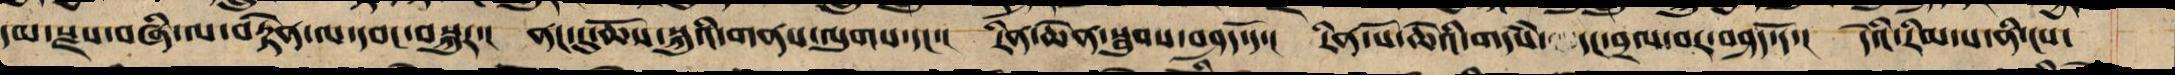དབང་སྫས་བཞི་ལ་བརྟེན་ལ་དབང་བསྐུར་། ནང་དུ་ཆོས་སྐུའི་གནས་ལུགས་དང་། རིན་པོ་ཆེའི་སྦུབས་བཤད་དོ་། རིན་པོ་ཆེའི་གདཾས་ངག་དང་འབྲེལ་བར་བཤད་དོ་། དེའི་རིམ་པ་ནི་ངས་
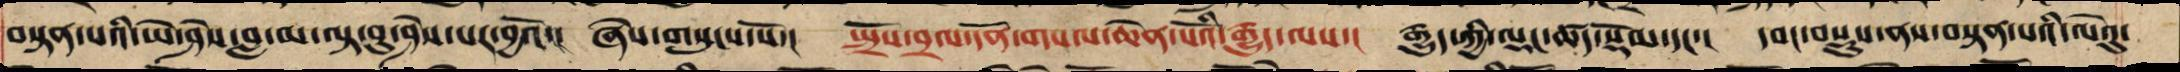བསྟན་པའི་ཡེ་ཤེས་བླ་མ་ལྟ་བུ་་ཤེས་པར་བྱའོ་། ཞེས་གསུངས་སོ་། སྤྲོས་བྲལ་དོན་གསལ་ཆེན་པོའི་རྒྱུད་ལས་། རྒྱུད་ཀྱི་ལྡང་ཚད་སྡོམ་དང་། དབང་བསྡུས་ནས་བསྟན་པའི་ལེའུ་
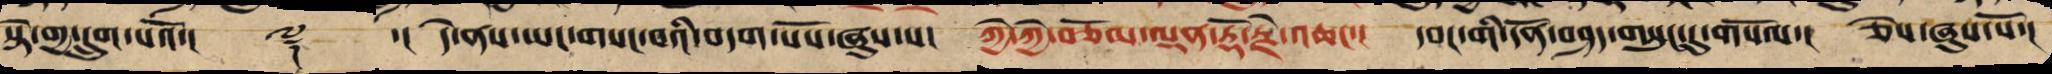སྟེ་གྱ་དྲུག་པའོ་།། ༈ ་།། དེ་ནས་ཡང་གསང་བའི་བདག་པོས་ཞུས་པ་། ཀྱེ་ཀྱེ་བཅོམ་ལྡན་རྡོ་རྗེ་འཆང་། དབང་གི་དོན་བཤད་གསུང་དུ་གསོལ་། ཅེས་ཞུས་སོ་།
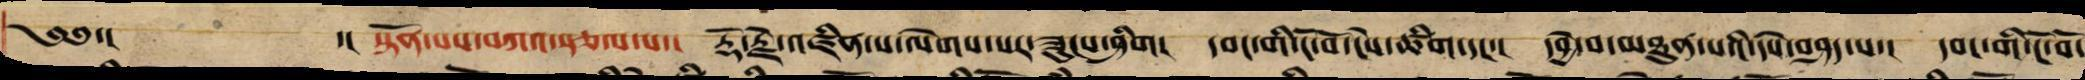༄༅་།  ་། སྟོན་པས་བཀའ་སྩལ་པ་། རྡོ་རྗེ་འཛིན་པ་ལེགས་པར་ཟུངས་ཤིག། དབང་གི་ངོ་བོ་ངེས་ཚིག་དང་། དབྱེ་བ་མཐུན་པའི་དཔེ་བཤད་པ་། དབང་གི་ངོ་བོ་
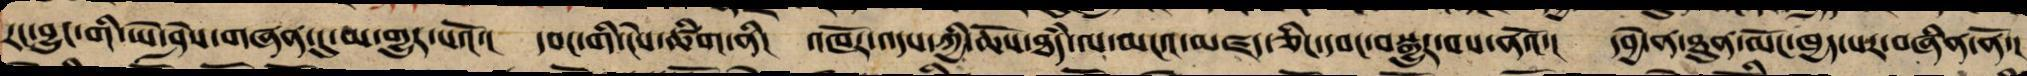རང་བྱུང་གི་ཡེ་ཤེས་གཞན་དུ་མ་གྱུར་པའོ་། དབང་གི་ངེས་ཚིག་ནི། འཁོར་འདས་ཀྱི་ཆོས་ཐཾད་ལ་མངའ་མཛད་ཅིང་དབང་བསྒྱུར་བས་ནའོ་། དབྱེ་ན་ཐུན་མོང་དང་ཁྱད་པར་གོང་བཞིན་ནོ་།
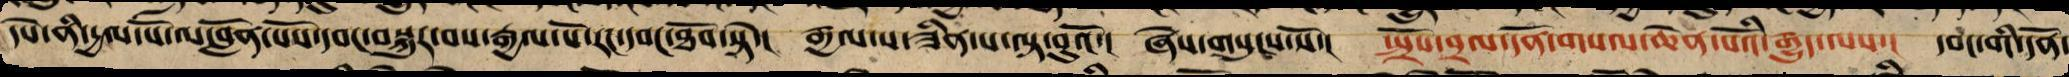དཔེ་ནི་རྒྱལ་པོ་ལ་བློན་པོས་དབང་བསྐུར་བས་རྒྱལ་པོར་རང་དབང་ཐོབ་སྟེ་། རྒྱལ་ས་ཟིན་པ་ལྟ་བུའོ་། ཞེས་གསུངས་སོ་། སྤྲོས་བྲལ་དོན་གསལ་ཆེན་པོའི་རྒྱུད་ལས་། དབང་གི་དོན་
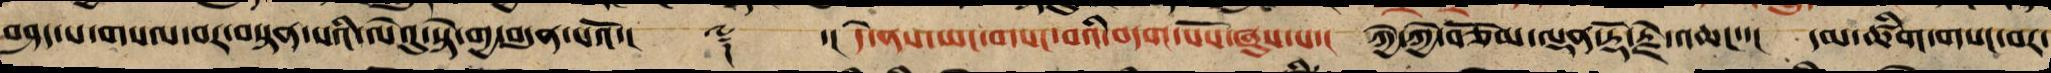བཤད་པ་གསལ་བར་བསྟན་པའི་ལེའུ་སྟེ་གྱ་བདུན་པའོ་།། ༈ ་།། དེ་ནས་ཡང་གསང་བའི་བདག་པོས་ཞུས་པ་། ཀྱེ་ཀྱེ་བཅོམ་ལྡན་རྡོ་རྗེ་འཆང་་། དམ་ཚིག་གསང་བར་
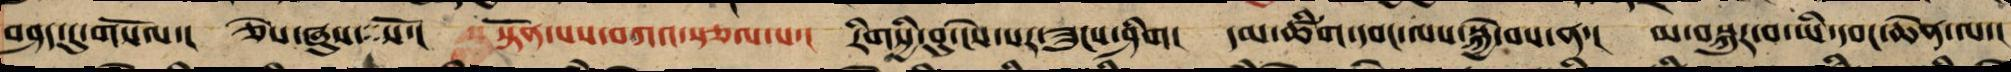བཤད་དུ་གསོལ་། ཅེས་ཞུས་སོ་། སྟོན་པས་བཀའ་སྩལ་པ་། རིགསྱི་བུ་ངེས་པར་ཟུང་ཤིག། དམ་ཚིག་དབང་ལས་སྐྱེ་བས་ན་། མ་བསྐུར་བ་ཡི་དབང་ཆེན་ལ་།
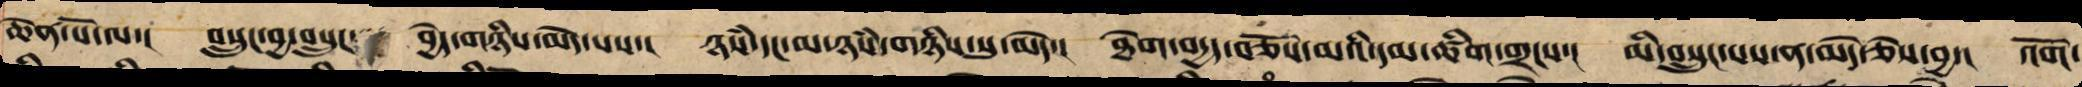ཆེན་པོ་ལ་། བསྲུང་བྱ་སྲུང་  བྱེད་གཉིས་མེད་པས་། ཉཾས་དང་མ་ཉཾས་གཉིས་སུ་མེད་། ཐེག་བདྱད་བཅོས་པའི་དམ་ཚིག་གྲངས་། མི་བསྲུང་པས་ན་མེད་ཅེས་བྱ་། འོག་
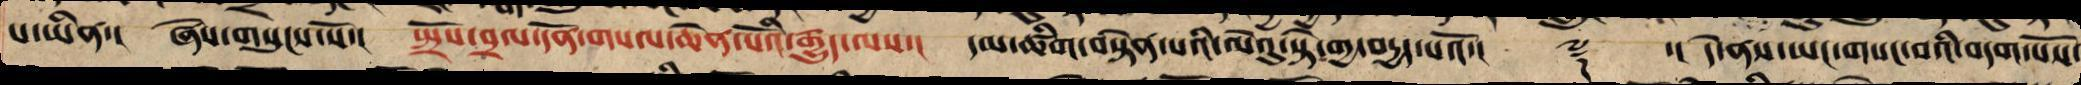པ་ཡིན་། ཞེས་གསུངས་སོ་། སྤྲོས་བྲལ་དོན་གསལ་ཆེན་པོའི་རྒྱུད་ལས་། དམ་ཚིག་བསྟན་པའི་ལེའུ་སྟེ་གྱ་བརྒྱད་པའོ་།། ༈ ་།། དེ་ནས་ཡང་གསང་བའི་བདག་པོས་
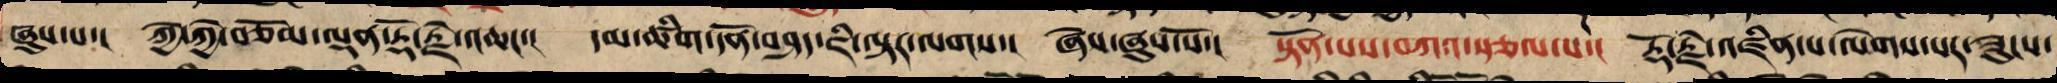ཞུས་པ་། ཀྱེ་ཀྱེ་བཅོམ་ལྡན་རྡོ་རྗེ་འཆང་། དམ་ཚིག་དོན་བཤད་ཇི་ལྟར་ལགས་། ཞེས་ཞུས་སོ་། སྟོན་པས་བཀའ་སྩལ་པ་། རྡོ་རྗེ་འཛིན་པ་ལེགས་པར་ཟུངས་
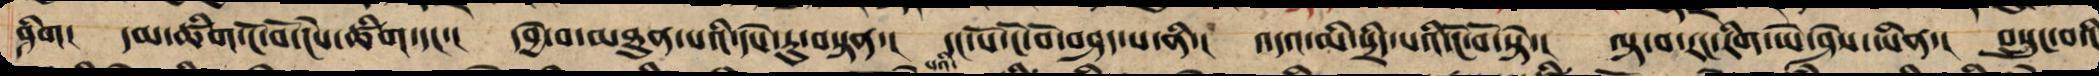ཤིག། དམ་ཚིག་ངོ་བོ་ངེས་ཚིག་དང་། དབྱེ་བ་མཐུན་པའི་དཔེ་རུ་བསྟན་། དང་པོ་ངོ་བོ་བཤད་པ་ནི་། འདའ་མི་སྲིད་པའི་ངོ་བོ་སྟེ་། ལྟ་བ་རང་རིག་ཡེ་ཤེས་ཡིན་། བསྲུང་བའི
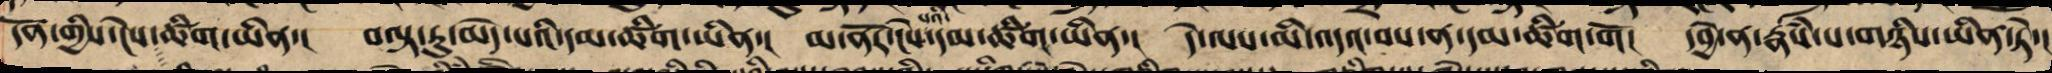དོན་གྱི་ངེས་ཚིག་ཡིན་། བལྟ་རུ་མེད་པའི་དམ་ཚིག་ཡིན་། མ་ནོར་ངེས་དམ་ཚིག་ཡིན་། དེ་ལས་མི་འདའ་བས་ན་དམ་ཚིག་གོ། དབྱེ་བ་རྣཾས་པ་གཉིས་ཡིན་ཏེ་།
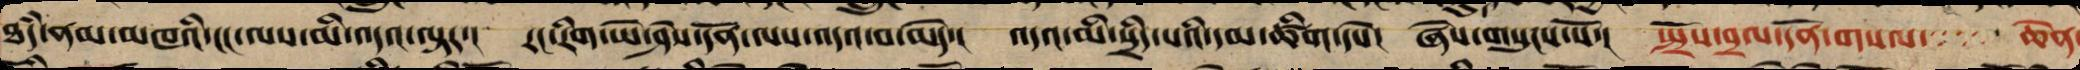ཐཾད་ནམ་མཁའི་ངང་ལས་མི་འདའ་ལྟར་། རང་རིག་ཡེ་ཤེས་དོན་ལས་འདའ་བ་མེད་། འདའ་མི་སྲིད་པའི་དམ་ཚིག་དཔེ། ཞེས་གསུངས་སོ་། སྤྲོས་བྲལ་དོན་གསལ་་་་་ ཆེན
